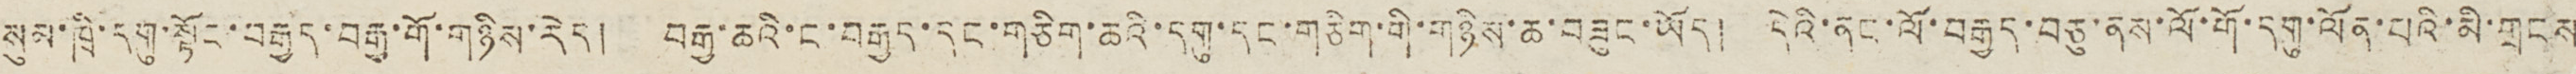སུམ་ཁྲི་དགུ་སྟོང་བརྒྱད་བརྒྱ་གོ་གཉིས་རེད། བརྒྱ་ཆའི་ང་བརྒྱད་དང་གཅིག་ཆའི་དགུ་དང་གཅིག་གི་གཉིས་ཆ་བཟུང་ཡོད། དེའི་ནང་ལོ་བརྒྱད་བཅུ་ནས་ལོ་གོ་དགུ་ལོན་པའི་མི་གྲངས
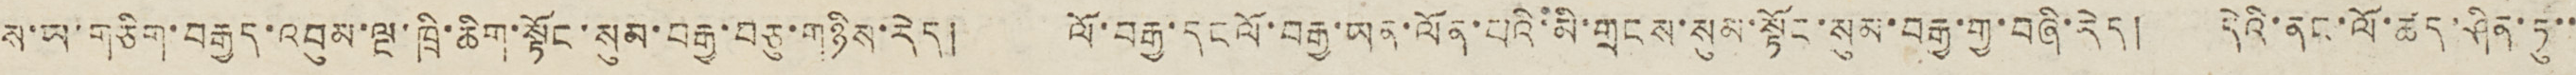ས་ཡ་གཅིག་བརྒྱད་འབུམ་ལྔ་ཁྲི་ཆིག་སྟོང་སུམ་བརྒྱ་བཅུ་གཉིས་རེད། ལོ་བརྒྱ་དང ལོ་བརྒྱ་ཡན་ལོན་པའི་མི་གྲངས་སུམ་སྟོང་སུམ་བརྒྱ་གྱ་བཞི་རེད། དེའི་ནང་ལོ་ཚད་ཤིན་ཏུ་་
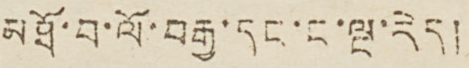མཐོ་བ་ལོ་བརྒྱ་དང་ང་ལྔ་རེད།
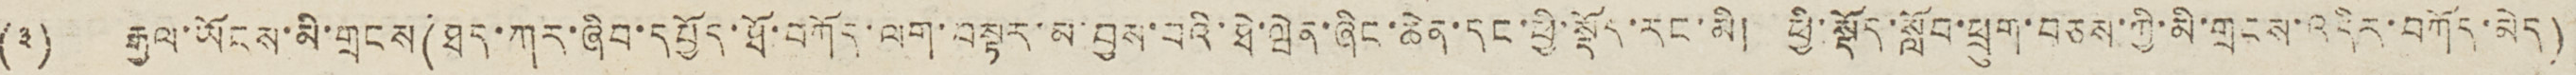(༣) རྒྱལ་ཡོངས་མི་གྲངས(ཐད་ཀར་ཞིབ་དཔྱོད་ཐོ་བཀོད་ལག་བསྟར་མ་བྱས་པའི་ཐེ་ཝེན་ཞིང་ཆེན་དང་ཕྱི་སྡོད་རང་མི། ཕྱི་སྡོད་སློབ་ཕྲུག་བཅས་ཀྱི་མི་གྲངས་འདིར་བཀོད་མེད )
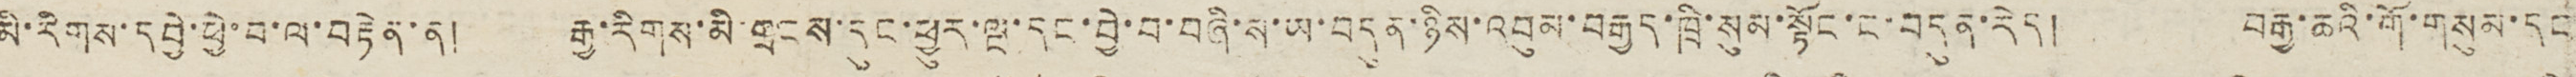མི་རིགས་དབྱེ་ཕྱེ་བ་ལ་བརྟེན་ན། རྒྱ་རིགས་མི་གྲངས་དུང་ཕྱུར་ལྔ་དང་བྱེ་བ་བཞི་ས་ཡ་བདུན་ཉིས་འབུམ་བརྒྱད་ཁྲི་སུམ་སྟོང་ང་བདུན་རེད། བརྒྱ་ཆའི་གོ་གསུམ་དང
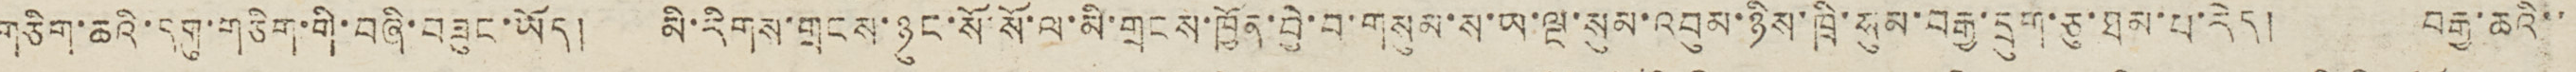གཅིག་ཆའི་དགུ་གཅིག་གི་བཞི་བཟུང་ཡོད། མི་རིགས་གྲངས་ཉུང་སོ་སོ་ལ་མི་གྲངས་ཁྱོན་བྱེ་བ་གསུམ་ས་ཡ་ལྔ་སུམ་འབུམ་ཉིས་ཁྲི་སུམ་བརྒྱ་དྲུག་ཅུ་ཐམ་པ་རེད། བརྒྱ་ཆའི་་
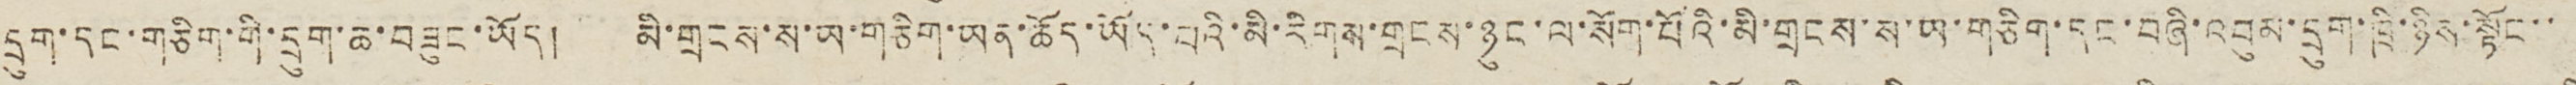དྲུག་དང་གཅིག་གི་དྲུག་ཆ་བཟུང་ཡོད། མི་གྲངས་ས་ཡ་གཅིག་ཡན་ཆོད་ཡོད་པའི་མི་རིགས་གྲངས་ཉུང་ལ་སོག་པོའི་མི་གྲངས་ས་ཡ་གཅིག་དང་བཞི་འབུམ་དྲུག་ཁྲི་ཉིས་སྟོང་་
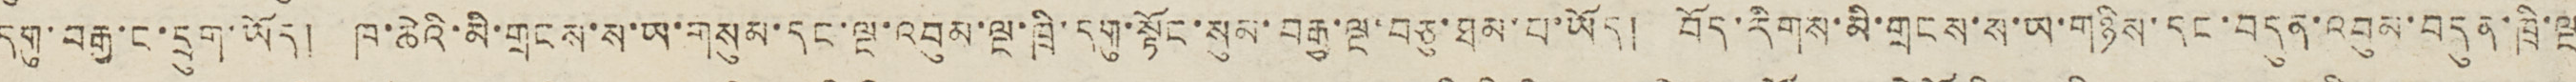དགུ་བརྒྱ་ང་དྲུག་ཡོད། ཁ་ཆེའི་མི་གྲངས་ས་ཡ་གསུམ་དང་ལྔ་འབུམ་ལྔ་ཁྲི་དགུ་སྟོང་སུམ་བརྒྱ་ལྔ་བཅུ་ཐམ་པ་ཡོད། བོད་རིགས་མི་གྲངས་ས་ཡ་གཉིས་དང་བདུན་འབུམ་བདུན་ཁྲི་ལྔ
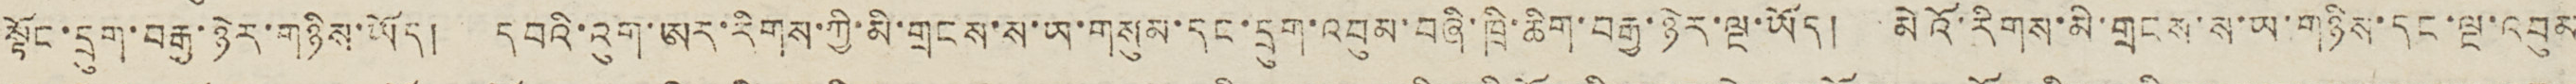སྟོང་དྲུག་བརྒྱ་ཉེར་གཉིས་ཡོད། ད བའི་འུག་ཨར་རིགས་ཀྱི་མི་གྲངས་ས་ཡ་གསུམ་དང་དྲུག་འབུམ་བཞི་ཁྲི་ཆིག་བརྒྱ་ཉེར་ལྔ་ཡོད། མེའོ་རིགས་མི་གྲངས་ས་ཡ་གཉིས་དང་ལྔ་འབུམ་
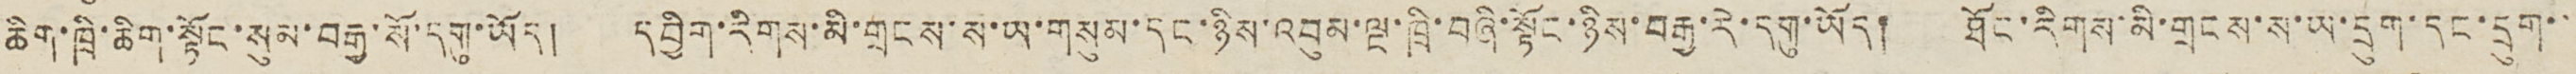ཆིག་ཁྲི་ཆིག་སྟོང་སུམ་བརྒྱ་སོ་དགུ་ཡོད། དབྱིག་རིགས་མི་གྲངས་ས་ཡ་གསུམ་དང་ཉིས་འབུམ་ལྔ་ཁྲི་བཞི་སྟོང་ཉིས་བརྒྱ་རེ་དགུ་ཡོད། ཐོང་རིགས་མི་གྲངས་ས་ཡ་དྲུག་དང་དྲུག་
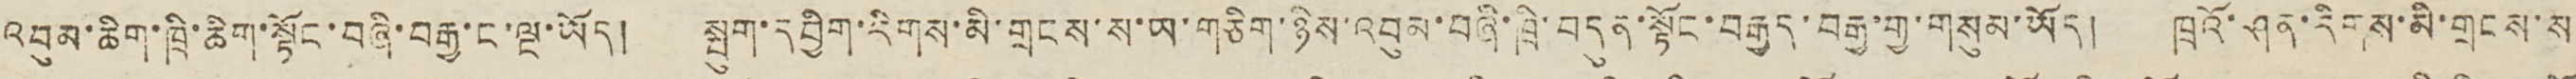འབུམ་ཆིག་ཁྲི་ཆིག་སྟོང་བཞི་བརྒྱ་ང་ལྔ་ཡོད། སྤུག་དབྱིག་རིགས་མི་གྲངས་ས་ཡ་གཅིག་ཉིས་འབུམ་བཞི་ཁྲི་བདུན་སྟོང་བརྒྱད་བརྒྱ་གྱ་གསུམ་ཡོད། ཁྲའོ་ཤན་རིགས་མི་གྲངས་ས
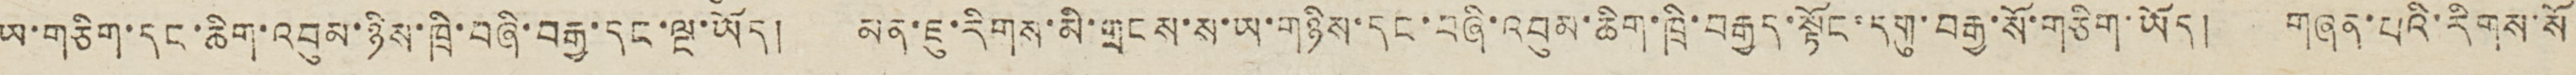ཡ་གཅིག་དང་ཆིག་འབུམ་ཉིས་ཁྲི་བཞི་བརྒྱ་དང་ལྔ་ཡོད། མན་ཇུ་རིགས་མི་གྲངས་ས་ཡ་གཉིས་དང་བཞི་འབུམ་ཆིག་ཁྲི་བརྒྱད་སྟོང་དགུ་བརྒྱ་སོ་གཅིག་ཡོད། གཞན་པའི་རིགས་སོ
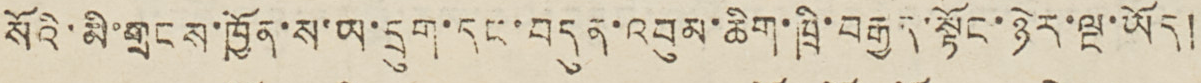སོའི་མི་གྲངས་ཁྱོན་ས་ཡ་དྲུག་དང་བདུན་འབུམ་ཆིག་ཁྲི་བརྒྱད་སྟོང་ཉེར་ལྔ་ཡོད།
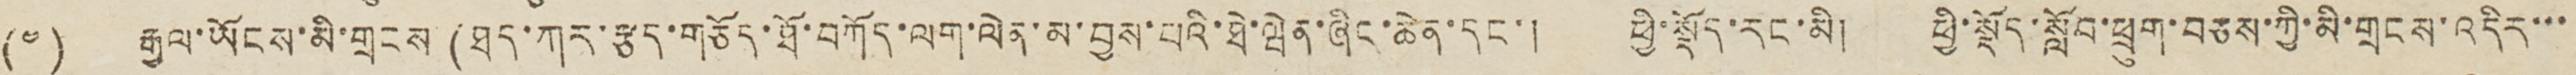(༤) རྒྱལ་ཡོངས་མི་གྲངས (ཐད་ཀར་རྩད་གཅོད་ཐོ་བཀོད་ལག་ལེན་མ་བྱས་པའི་ཐེ་ཝེན་ཞིང་ཆེན་དང་། ཕྱི་སྡོད་རང་མི། ཕྱི་སྡོད་སློབ་ཕྲུག་བཅས་ཀྱི་མི་གྲངས་འདིར་་་
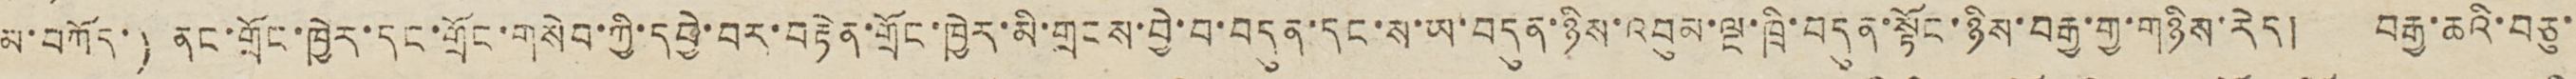མ་བཀོད་) ནང་གྲོང་ཁྱེར་དང་གྲོང་གསེབ་ཀྱི་དབྱེ་བར་བརྟེན་གྲོང་ཁྱེར་མི་གྲངས་བྱེ་བ་བདུན་དང་ས་ཡ་བདུན་ཉིས་འབུམ་ལྔ་ཁྲི་བདུན་སྟོང་ཉིས་བརྒྱ་གྱ་གཉིས་རེད། བརྒྱ་ཆའི་བཅུ་
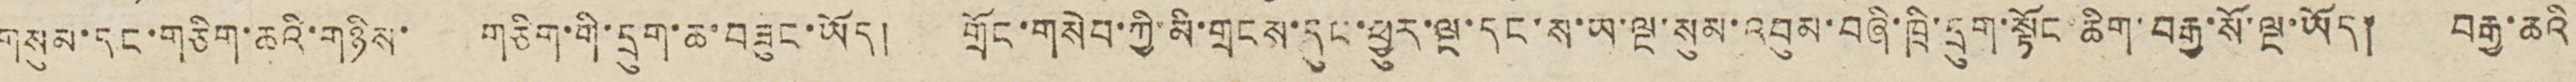གསུམ་དང་གཅིག་ཆའི་གཉིས་ གཅིག་གི་དྲུག་ཆ་བཟུང་ཡོད། གྲོང་གསེབ་ཀྱི་མི་གྲངས་དུང་ཕྱུར་ལྔ་དང་ས་ཡ་ལྔ་སུམ་འབུམ་བཞི་ཁྲི་དྲུག་སྟོང ཆིག་བརྒྱ་སོ་ལྔ་ཡོད། བརྒྱ་ཆའི
